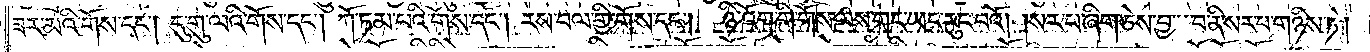ཟར་མའི་གོས་དང༌། དུ་གུ་ལའི་གོས་དང༌། ཀོ་ཏམ་པའི་གོས་དང༌། རས་བལ་གྱི་གོས་དང༌། ཉི་འོག་གི་གོས་ལས་གང་ཡང་རུང་བའོ། །སར་པ་ཞིག་ཅེས་བྱ་བ་ནི་སར་པ་གཉིས་ཏེ།
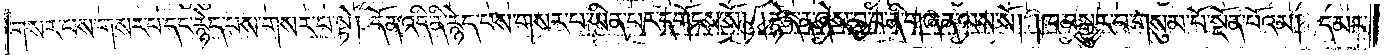གསར་པས་གསར་པ་དང་རྙེད་པས་གསར་པ་སྟེ། དོན་འདི་ནི་རྙེད་པས་གསར་པ་ཡིན་པར་དགོངས་སོ། །རྙེད་ན་ཞེས་བྱ་བ་ནི་གཞན་ལས་སོ། །ཁ་བསྒྱུར་བ་གསུམ་པོ་སྔོན་པོའམ། དམར་
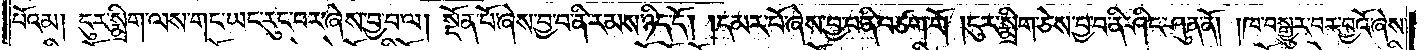པོའམ། ངུར་སྨྲིག་ལས་གང་ཡང་རུང་བར་ཞེས་བྱ་བ་ལ། སྔོན་པོ་ཞེས་བྱ་བ་ནི་རམས་ཉིད་དོ། །དམར་པོ་ཞེས་བྱ་བ་ནི་བཙག་གོ །ངུར་སྨྲིག་ཅེས་བྱ་བ་ནི་ཤིང་ཤུན་ནོ། །ཁ་བསྒྱུར་བར་བྱའོ་ཞེས་
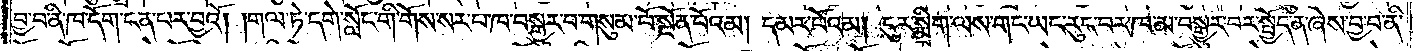བྱ་བ་ནི་ཁ་དོག་ངན་པར་བྱའོ། །གལ་ཏེ་དགེ་སློང་གི་གོས་སར་པ་ཁ་བསྒྱུར་བ་གསུམ་པོ་སྔོན་པོའམ། དམར་པོའམ། ངུར་སྨྲིག་ལས་གང་ཡང་རུང་བར་ཁམ་བསྒྱུར་བར་སྤྱོད་ན་ཞེས་བྱ་བ་ནི་
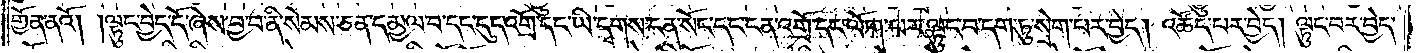གྱོན་ནའོ། །ལྟུང་བྱེད་དོ་ཞེས་བྱ་བ་ནི་སེམས་ཅན་དམྱལ་བ་དང་དུད་འགྲོ་དང་ཡི་དྭགས་ངན་སོང་དང་ངན་འགྲོ་དང་ལོག་པར་ལྟུང་བ་དག་ཏུ་སྲེག་པར་བྱེད། འཚོད་པར་བྱེད། ལྟུང་བར་བྱེད་
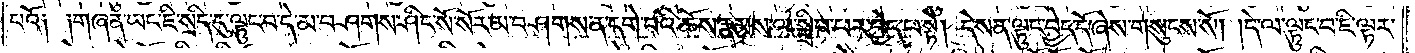པའོ། །གཞན་ཡང་ཇི་སྲིད་དུ་ལྟུང་བ་དེ་མ་བཤགས་ཤིང་སོ་སོར་མ་བཤགས་ན་དགེ་བའི་ཆོས་རྣམས་ལ་སྒྲིབ་པར་བྱེད་པ་སྟེ། དེས་ན་ལྟུང་བྱེད་དོ་ཞེས་གསུངས་སོ། །དེ་ལ་ལྟུང་བ་ཇི་ལྟར་
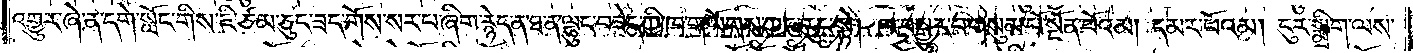འགྱུར་ཞེ་ན་དགེ་སློང་གིས་ཇི་ཙམ་ཅུང་ཟད་གོས་སར་པ་ཞིག་རྙེད་ན་ཐ་ན་ལྷུང་བཟེད་ཀྱི་ཁ་གཡོགས་ཀྱང་རུང་སྟེ། ཁ་བསྒྱུར་བ་གསུམ་པོ་སྔོན་པོའམ། དམར་པོའམ། ངུར་སྨྲིག་ལས་
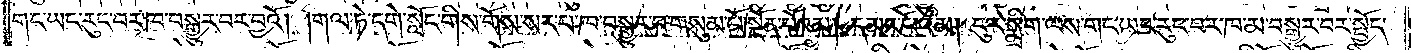གང་ཡང་རུང་བར་ཁ་བསྒྱུར་བར་བྱའོ། །གལ་ཏེ་དགེ་སློང་གིས་གོས་སར་པ་ཁ་བསྒྱུར་བ་གསུམ་པོ་སྔོན་པོའམ། དམར་པོའམ། ངུར་སྨྲིག་ལས་གང་ཡང་རུང་བར་ཁ་མ་བསྒྱུར་བར་སྤྱོད་
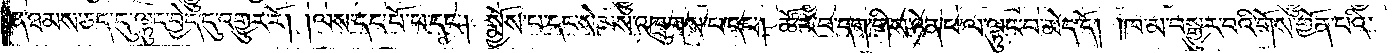ན་ཐམས་ཅད་དུ་ལྟུང་བྱེད་དུ་འགྱུར་རོ། །ལས་དང་པོ་པ་དང༌། སྨྱོས་པ་དང་སེམས་འཁྲུགས་པ་དང༌། ཚོར་བ་དག་གིས་ཉེན་པ་ལ་ལྟུང་བ་མེད་དོ། །ཁ་མ་བསྒྱུར་བའི་གོས་གྱོན་པའི་
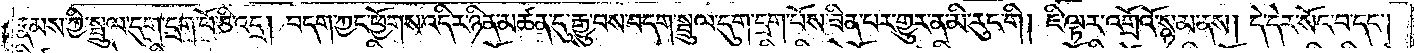རྣམས་ཀྱི་སྦྲུལ་དུག་དྲག་པོ་ཅི་འདྲ། བདག་ཀྱང་ཕྱོགས་འདིར་ཉིན་མཚན་དུ་རྒྱུ་བས་བདག་སྦྲུལ་དུག་དྲག་པོས་ཟིན་པར་གྱུར་ན་མི་རུང་གི །ཇི་ལྟར་འགྲོའོ་སྙམ་ནས། དེ་དེར་སོང་བ་དང༌།
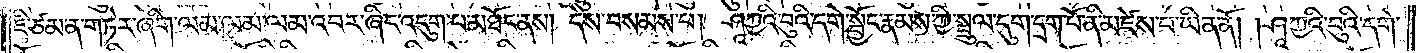ཇི་ཙམ་ན་གཏེར་ཞིག་ལམ་ལམ་ལམ་འབར་ཞིང་འདུག་པ་མཐོང་ནས། དེས་བསམས་པ། ཤཱཀྱའི་བུའི་དགེ་སྦྱོང་རྣམས་ཀྱི་སྦྲུལ་དུག་དྲག་པོ་ནི་མཛེས་པ་ཡིན་ནོ། །ཤཱཀྱའི་བུའི་དགེ་
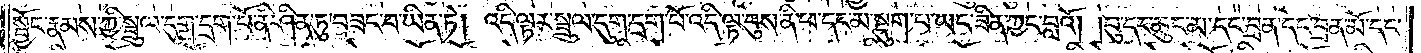སྦྱོང་རྣམས་ཀྱི་སྦྲུལ་དུག་དྲག་པོ་ནི་ཤིན་ཏུ་བཟང་བ་ཡིན་ཏེ། འདི་ལྟར་སྦྲུལ་དུག་དྲག་པོ་འདི་ལྟ་བུས་ནི་ཕ་དང་མ་སྡུག་པ་ཡང་ཟིན་ཀྱང་བླའོ། །བུ་དང་ཆུང་མ་དང་བྲན་དང་བྲན་མོ་དང་
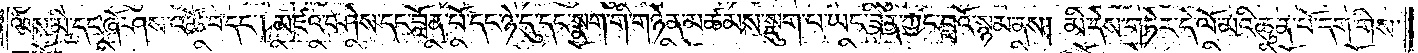ལས་མི་དང་ཞོ་ཤས་འཚོ་བ་དང༌། མཛའ་བཤེས་དང་བློན་པོ་དང་ཉེ་དུ་དང་སྣག་གི་གཉེན་མཚམས་སྡུག་པ་ཡང་ཟིན་ཀྱང་བླའོ་སྙམ་ནས། མི་དེས་གཏེར་དེ་ལོ་མའི་ཆུན་པོ་དག་གིས་
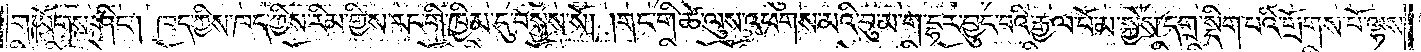གཡོགས་ཤིང༌། ཁད་ཀྱིས་ཁད་ཀྱིས་རིམ་གྱིས་རང་གི་ཁྱིམ་དུ་བསྐྱས་སོ། །གང་གི་ཚེ་ལུས་འཕགས་མའི་བུ་མ་ག་དྷར་བྱུང་བའི་རྒྱལ་པོ་མ་སྐྱེས་དགྲ་སྡིག་པའི་གྲོགས་པོ་ལྷས་
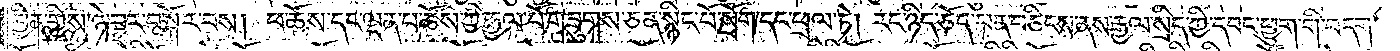བྱིན་གྱིས་ཉེ་བར་བསྐོར་བས། ཕ་ཆོས་དང་ལྡན་པ་ཆོས་ཀྱི་རྒྱལ་པོ་གཟུགས་ཅན་སྙིང་པོ་སྲོག་དང་ཕྲལ་ཏེ། རང་ཉིད་ཅོད་པ་ན་བཅིངས་ནས་རྒྱལ་སྲིད་ཀྱི་དབང་ཕྱུག་གི་བདག་
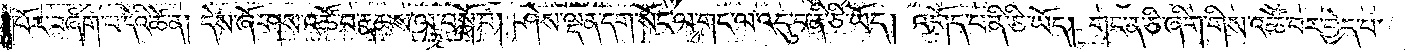པོར་བཞག་པ་དེའི་ཚེ་ན། དེས་ཞོ་ཤས་འཚོ་བ་རྣམས་ལ་བསྒོ་བ། ཤེས་ལྡན་དག་སོང་ལ་གང་ལ་འདུ་བ་ནི་ཅི་ཡོད། འགོད་པ་ནི་ཅི་ཡོད། གང་ན་ཅི་ཞིག་གིས་འཚོ་བར་བྱེད་པ་
